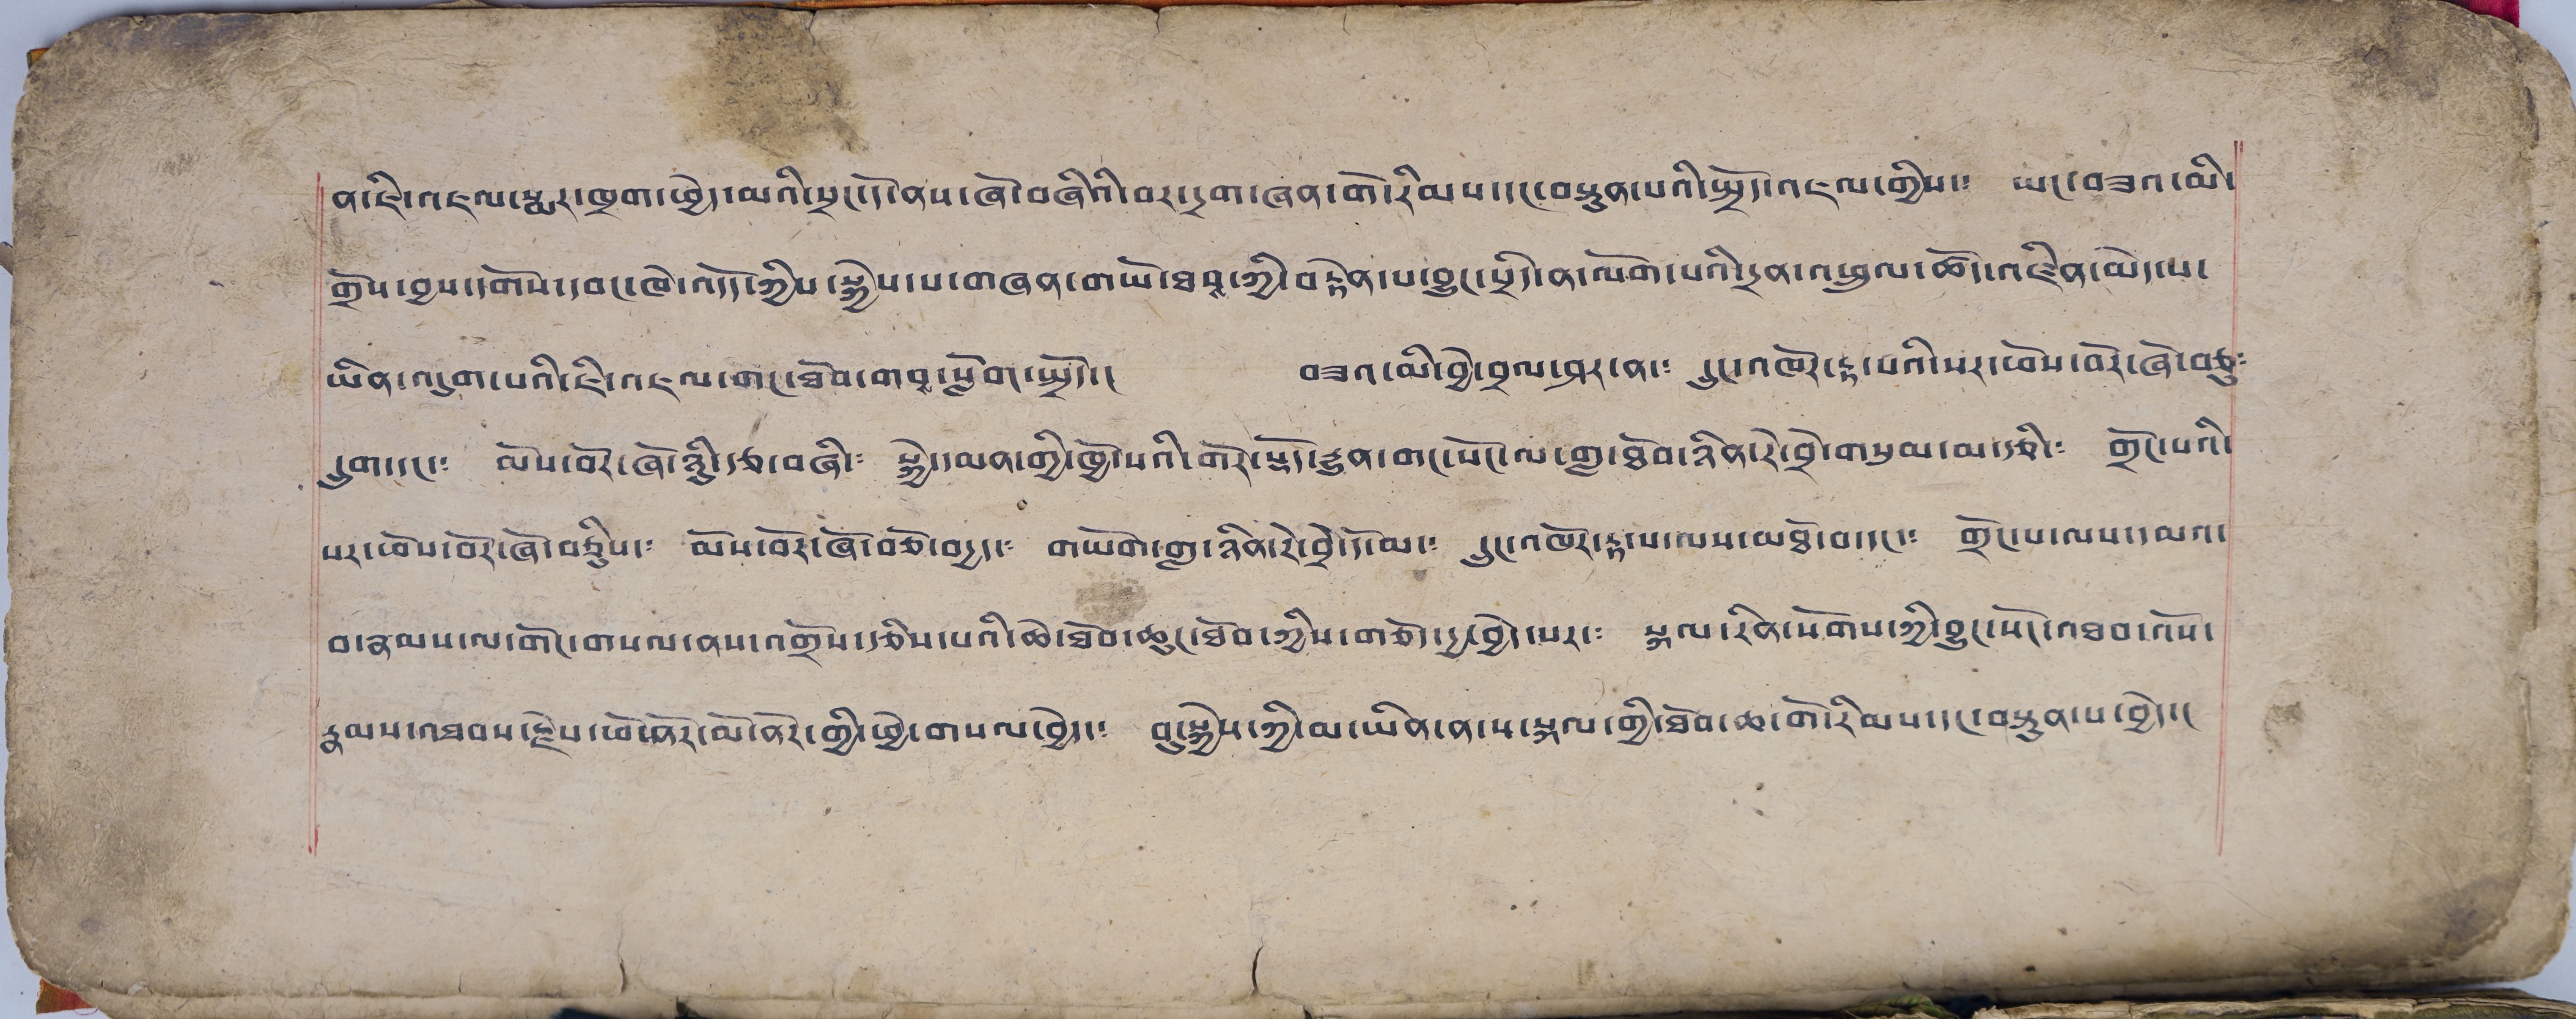ན་ཇི་འཇལ་སྨར་ཁྲག་ཕྱེད་མའི་སྲང་དོ་ནས་ཞོ་བཞིའི་བར་དྲག་ཞན་གོ་རིམས་དང་བསྟུན་པའི་སྤྲོད་འཇལ་གྱིས་༴ ཡང་བཟའ་མི་
གྲོས་བྱས་དགོས་དབང་ཁེ་འདོད་ཀྱིས་སྐྱེས་པ་གཞན་གཡོ་ཐབས་ཀྱི་བརྟེན་པ་བྱུང་སྲིད་ན་ལོག་པའི་དྲན་འཕྲུལ་ཚོད་འཛིན་མེད་པ་
ཡིན་འདུག་པའི་ཇི་འཇལ་གང་ཐོབ་གབས་སློག་སྤྲོད་། བཟའ་མི་བྱེ་བྲལ་ཤར་ན་༴ དྲུང་འཁོར་རྟ་པའི་སར་ཕོས་བར་ཞོ་བཅུ༴
དྲུག་དང་༴ མོས་བོར་ཞོ་ཉིུ་རྩ་བཞི་༴ སྐྱེ་མན་གྱི་ཁྱོ་པའི་གོར་སྟོད་རྒྱུན་གང་སོང་ལ་གླ་ཐོབ་ཉིན་རེ་བྲེ་གསུམ་མ་རྩི་༴ གྲོང་པའི་
པར་ཕོས་བོར་ཞོ་བཅིུས་༴ མོས་བོར་ཞོ་བཅོ་བདྱད་༴ གཡོག་གླ་ཉིན་རེ་བྲེ་དོ་མ་༴ དྲུང་འཁོར་རྟ་པ་ལས་མཐོ་བ་དང་༴ གྲོང་པ་ལས་དམའ་
བ་རྣམས་ལ་གོང་གསལ་ནས་འགྲོས་རྩིས་པའི་ཆེ་ཐོབ་ཆུང་ཐོབ་ཀྱིས་གཅོད་དྱ་བྱེ་པར་༴ སྐལ་རིན་སོགས་ཀྱི་བྱུང་སོང་འཐབ་ལོས་
རྣམས་འཐབས་རྗེས་ཕོ་ནོར་མོ་ནོར་གྱི་ཕྱེ་གསལ་བྱེད་༴ བུ་སྐྱེས་ཀྱི་མ་ཡིན་ན་ས་སྐལ་གྱི་ཐོབ་ཆ་གོ་རིམས་དང་བསྟུན་པ་བྱེད།
